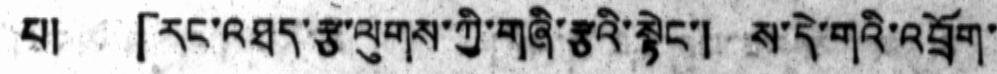པ།  「རང་འཐད་རྩ་ལུགས་ཀྱི་གཞི་རྩའི་སྟེང་།  ས་དེ་གའི་འབྲོག་
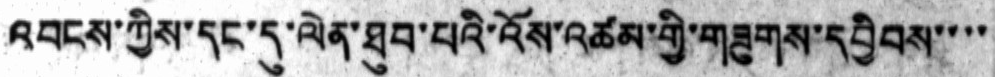འབངས་ཀྱིས་དང་དུ་ལེན་ཐུབ་པའི་འོས་འཚམ་གྱི་གཟུགས་དབྱིབས་་་་
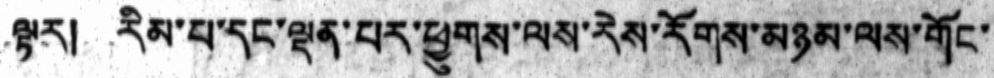ལྟར།  རིམ་པ་དང་ལྡན་པར་ཕྱུགས་ལས་རེས་རོགས་མཉམ་ལས་གོང་
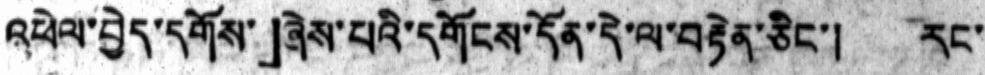འཕེལ་བྱེད་དགོས་」ཞེས་པའི་དགོངས་དོན་དེ་ལ་བརྟེན་ཅིང་། རང་
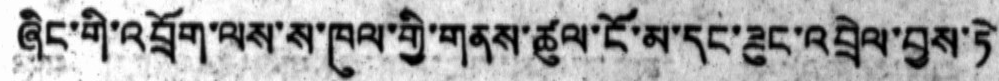ཞིང་གི་འབྲོག་ལས་ས་ཁུལ་གྱི་གནས་ཚུལ་ངོ་མ་དང་ཟུང་འབྲེལ་བྱས་ཏེ
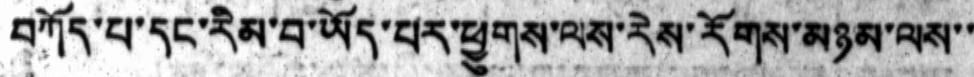བཀོད་པ་དང་རིམ་པ་ཡོད་པར་ཕྱུགས་ལས་རེས་རོགས་མཉམ་ལས་་
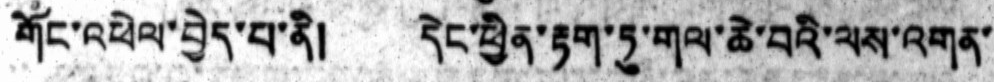གོང་འཕེལ་བྱེད་པ་ནི། དེང་ཕྱིན་རྟག་ཏུ་གལ་ཆེ་བའི་ལས་འགན་
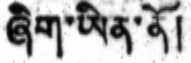ཞིག་ཡིན་ནོ།
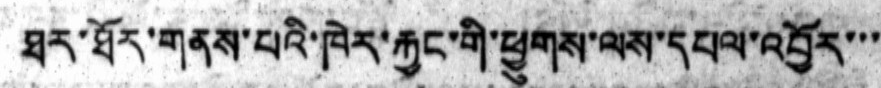ཐར་ཐོར་གནས་པའི་ཁེར་རྐྱང་གི་ཕྱུགས་ལས་དཔལ་འབྱོར་་་
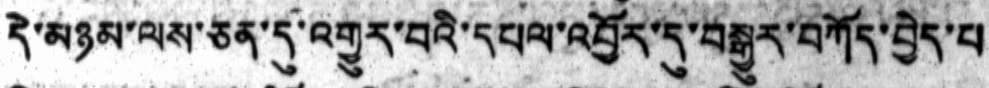དེ་མཉམ་ལས་ཅན་དུ་འགྱུར་བའི་དཔལ་འབྱོར་དུ་བསྒྱུར་བཀོད་བྱེད་པ
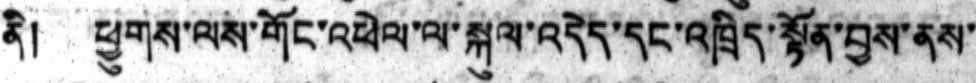ནི། ཕྱུགས་ལས་གོང་འཕེལ་ལ་སྐུལ་འདེད་དང་འཁྲིད་སྟོན་བྱས་ནས་
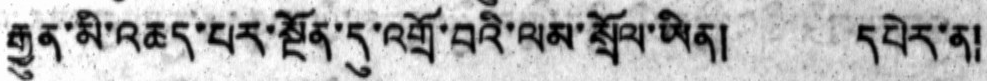རྒྱུན་མི་འཆད་པར་སྔོན་དུ་འགྲོ་བའི་ལམ་སྲོལ་ཡིན། དཔེར་ན།
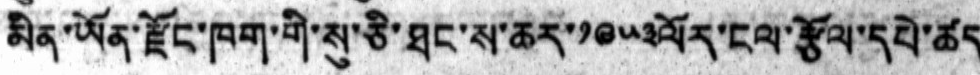མིན་ཡོན་རྫོང་ཁག་གི་སུ་ཅི་ཐང་ས་ཆར་༡༩༥༣ལོར་ངལ་རྩོལ་དཔེ་ཚད
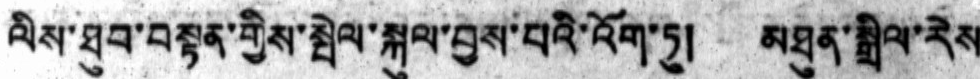ལིས་ཐུབ་བསྟན་གྱིས་སྤེལ་སྐུལ་བྱས་པའི་འོག་ཏུ། མཐུན་སྒྲིལ་རེས
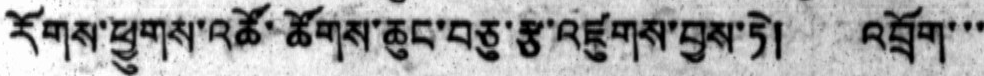རོགས་ཕྱུགས་འཚོ་ཚོགས་ཆུང་བཅུ་རྩ་འཛུགས་བྱས་ཏེ། འབྲོག་་་
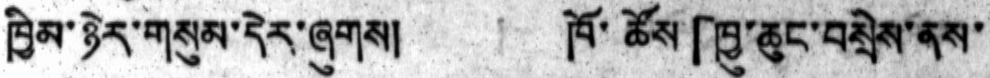ཁྱིམ་ཉེར་གསུམ་དེར་ཞུགས། ཁོ་ཚོས「ཁྱུ་ཆུང་བསྲེས་ནས་
